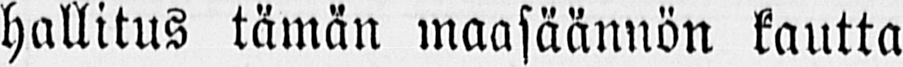hallitus tämän maasäännön kautta
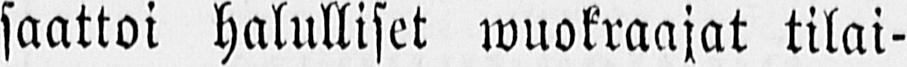saattoi halulliset wuokraajat tilai-
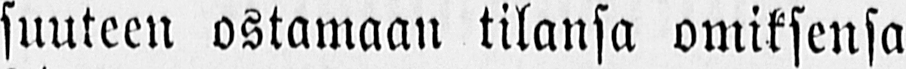suuteen ostamaan tilansa omiksensa
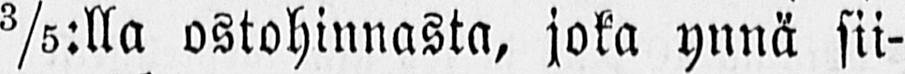3/5:lla ostohinnasta, joka ynnä sii-
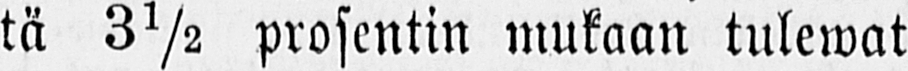tä 3½ prosentin mukaan tulewat
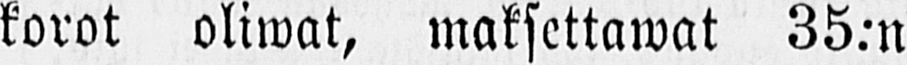korot oliwat, maksettawat 35:n
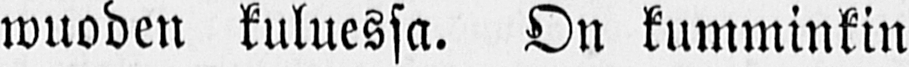wuoden kuluessa. On kumminkin
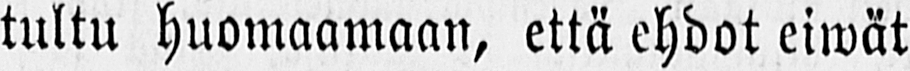tultu huomaamaan, että ehdot eiwät
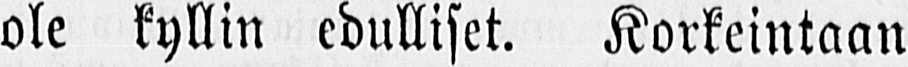ole kyllin edulliset. Korkeintaan
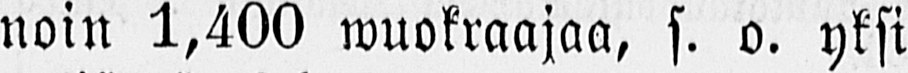noin 1,400 wuokraajaa, s. o. yksi
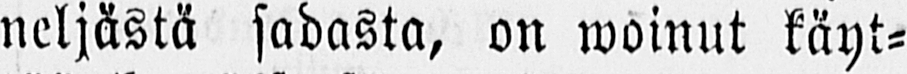neljästä sadasta, on woinut käyt-
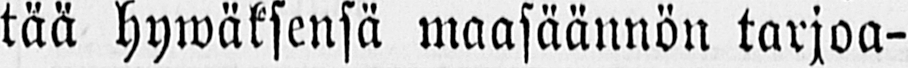tää hywäksensä maasäännön tarjoa-
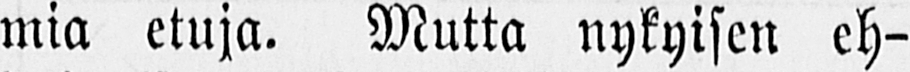mia etuja. Mutta nykyisen eh-
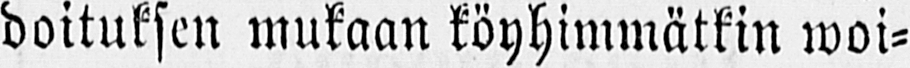doituksen mukaan köyhimmätkin woi-
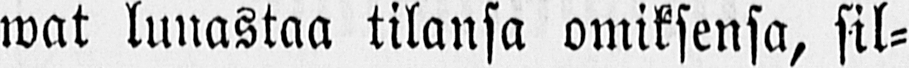wat lunastaa tilansa omiksensa, sil-
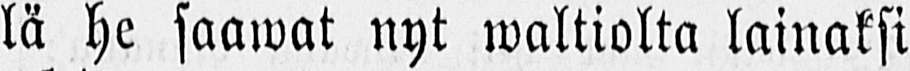lä he saawat nyt waltiolta lainaksi
